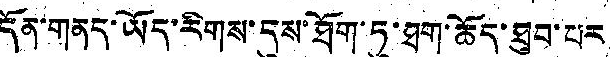དོན་གནད་ཡོད་རིགས་དུས་ཐོག་ཏུ་ཐག་ཆོད་ཐུབ་པར
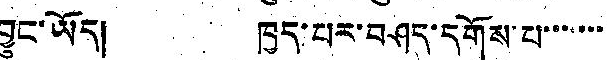བྱུང་ཡོད། ཁྱད་པར་བཤད་དགོས་པ་་་་་་
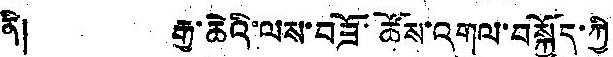ནི། རྒྱ་ཆེའི་ལས་བཟོ་ཚོས་འགུལ་བསྐྱོད་ཀྱི
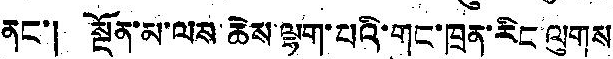ནང་། སྔོན་མ་ལས་ཆེས་ལྷག་པའི་གུང་ཁྲན་རིང་ལུགས
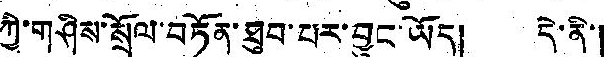ཀྱི་གཤིས་སྲོལ་བཏོན་ཐུབ་པར་བྱུང་ཡོད། དེ་ནི་།
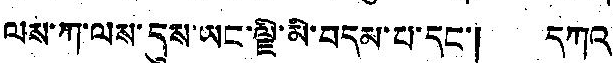ལས་ཀ་ལས་དུས་ཡང་ལྗི་མི་བདམ་པ་དང་། དཀའ
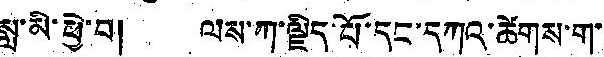སླ་མི་ཕྱེ་བ། ལས་ཀ་ལྗིད་པོ་དང་དཀའ་ཚེགས་ག་
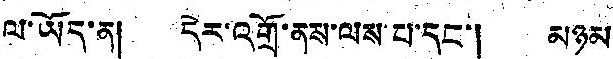ལ་ཡོད་ན། དེར་འགྲོ་ནས་ལས་པ་དང་། མཉམ
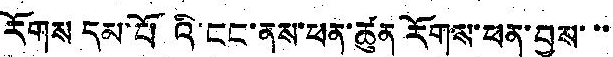རོགས དམ་པོའི་ངང་ནས་ཕན་ཚུན རོགས་ཕན་བྱས་་་
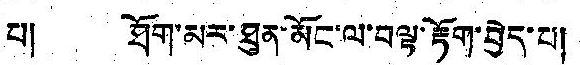པ། ཐོག་མར་ཐུན་མོང་ལ་བལྟ་རྟོག་བྱེད་པ།
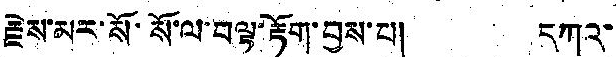རྗེས་མར་སོ་སོ་ལ་བལྟ་རྟོག་བྱས་པ། དཀའ་
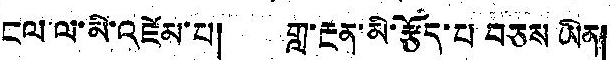ངལ་ལ་མི་འཛེམ་པ། གླ་རྔན་མི་རྩོད་པ བཅས ཡིན།
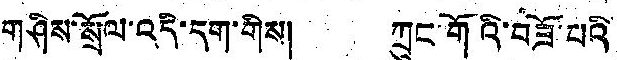གཤིས་སྲོལ་འདི་དག་གིས། ཀྲུང་གོའི་བཟོ་པའི
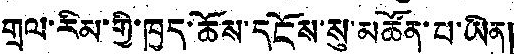གྲལ་རིམ་གྱི་ཁྱད་ཆོས་དངོས་སུ་མཚོན་པ་ཡིན།
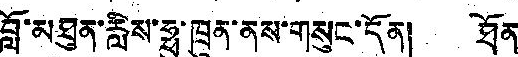བློ་མཐུན་རླིས་ཧྥུ་ཁྲུན་ནས་གསུང་དོན། ཐོན
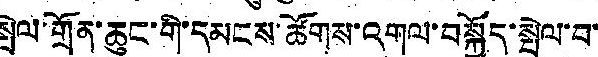སྤེལ་གྲོན་ཆུང་གི་དམངས་ཚོགས་འགུལ་བསྐྱོད་སྤེལ་བ་
